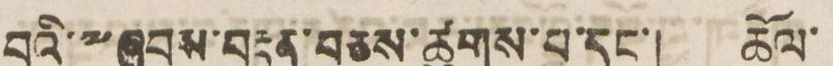བའི་༸ཞབས་བརྟན་བཅས་ཚུགས་པ་དང་། ཆོལ་
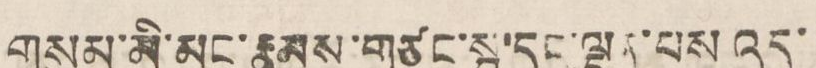གསུམ་མི་མང་རྣམས་གཙང་སྦྲ་དང་ལྡན་པས འདུ་
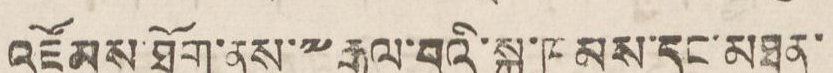འཛོམས་ཐོག་ནས་༸རྒྱལ་བའི་སྐུ་ཁམས་དང་མཐུན་
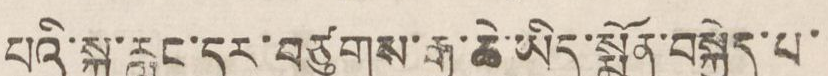པའི་སྐུ་རླུང་དར་བཙུགས་རྒྱ་ཆེ་ཡིད་སྨོན་བསྐྱེད་པ་
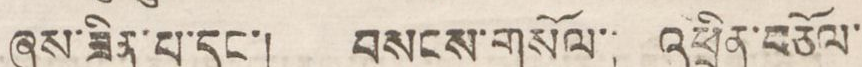ཞུས་ཟིན་པ་དང་། བསངས་གསོལ་། འཕྲིན་བཅོལ་
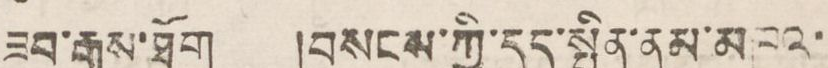ཟབ་རྒྱས་ཐོག །བསངས་ཀྱི་དུད་སྤྲིན་ནམ་མཁའ་
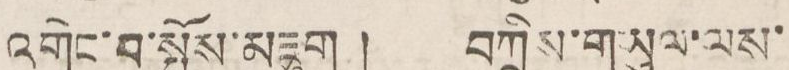འགེང་བ་སྤྲོས་མཇུག ། བཀྲིས་གཡུལ་ལས་
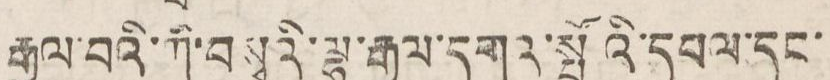རྒྱལ་བའི་ཀི་བསྭའི་ལྷ་རྒྱལ་དགའ་སྤྲོའི་དཔལ་དང་
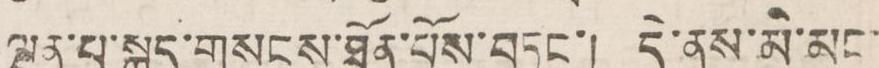ལྡན་པ་སྐད་གསངས་ཐོན་པོས་བཏང་། དེ་ནས་མི་མང་
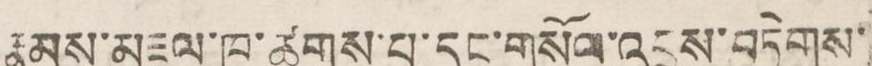རྣམས་མཇལ་ཁ་ཚུགས་པ་དང་གསོལ་འབྲས་བཏེགས་
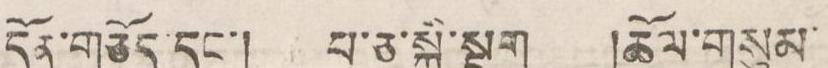དོན་གཅོད་དང་། པྰ་ཅ་སྐྱི་སྡུག །ཆོལ་གསུམ་
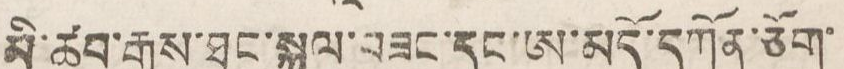མ་ཚབ་རྒྱས་ཐང་སྐལ་བཟང་དང་ཨ་མདོ་དཀོན་ཅོག་
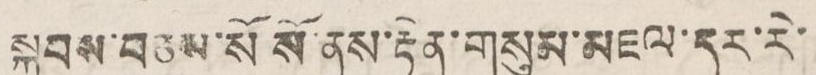སྐྱབས་བཅས་སོ སོ་ནས་རྟེན་གསུམ་མཇལ་དར་རེ་
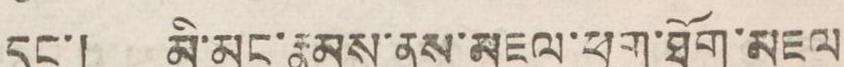དང་། མི་མང་རྣམས་ནས་མཇལ་ཕྱག་ཐོག་མཇལ
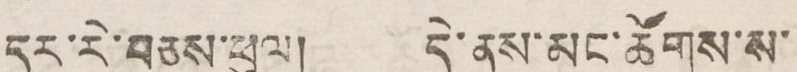དར་རེ་བཅས་ཕུལ། དེ་ནས་མང་ཚོགས་ས་
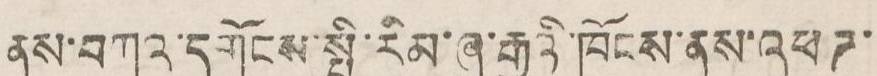ནས་བཀའ་དགོངས་སྤྱི་རིམ་ཞུ་རྒྱུའི་ཁོངས་ནས་འཕཊ་
